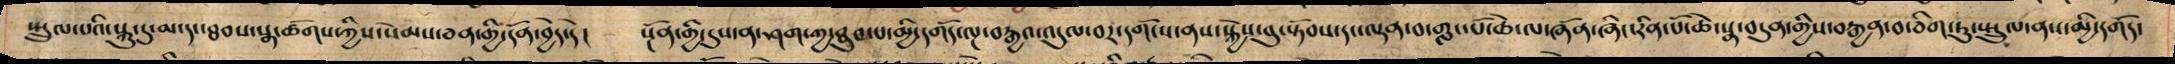སྤྲུལ་པའི་སྐུ་དུ་མ་དང་ཐབས་སྣ་ཚོགས་ཀྱིས་སེམས་ཅན་གྱི་དོན་བྱེད་དེ། སྔོན་གྱི་དུས་ན་ཤག་ཀྱ་ཐུབ་པ་མྱི་དགོད་ལྔ་བརྒྱའ་འདུལ་བར་དགོངས་ནས་སྐྱེས་བུ་སྟོབས་དང་ལྡན་བ་གླང་པོ་ཆེ་ལ་ཞཽན་ཞིང་རིན་པོ་ཆེ་སྣ་བདུན་གྱིས་བརྒྱན་བ་ཅིག་ཏུ་སྤྲུལ་ནས་མྱི་དགོད་
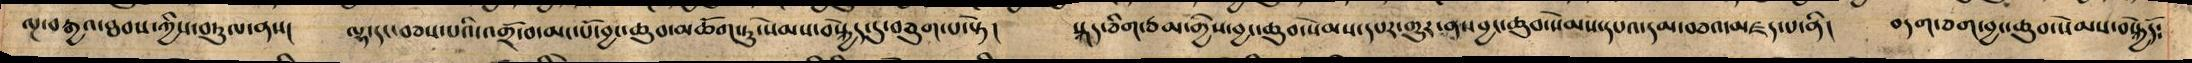ལྔ་བརྒྱའ་ཐབས་ཀྱིས་བཏུལ་ནས། ལྷ་དང་བཅས་པའི་འགྲོ་བ་མང་པོ་བྱང་ཆུབ་མཆོག་ཏུ་སེམས་བསྐྱེད་དུ་བཅུག་པ་སྟེ། སྐད་ཅིག་ཙམ་གྱིས་བྱང་ཆུབ་སེམས་དཔར་གྱུར་ནས་བྱང་ཆུབ་སེམས་དཔའ་དམ་བཅའ་མཛད་པ་ནི། བདག་ཅག་བྱང་ཆུབ་སེམས་བསྐྱེདོ༴
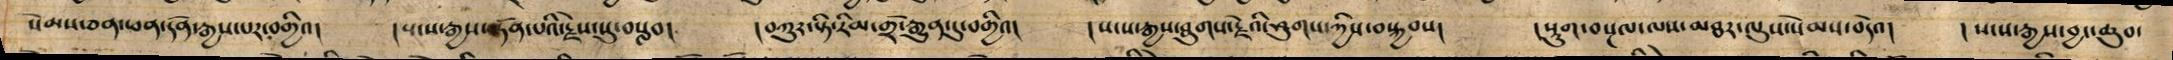སེམས་ཅན་ཕན་དོན་རྒྱས་པར་བགྱིའ། །སངས་རྒྱས་སྟོན་པའི་རྗེས་སུ་བསླབ། །བཀུར་སྟི་རིམ་གྲོ་རྒྱུན་དུ་བགྱིའ། །སངས་རྒྱས་ཐུགས་རྗེའི་ཤུགས་ཀྱིས་བསྐྱབས། །སྡུག་བསྔལ་ལས་མཐར་ལུས་སེམས་བདེའ། །སངས་རྒྱས་བྱང་ཆུབ་
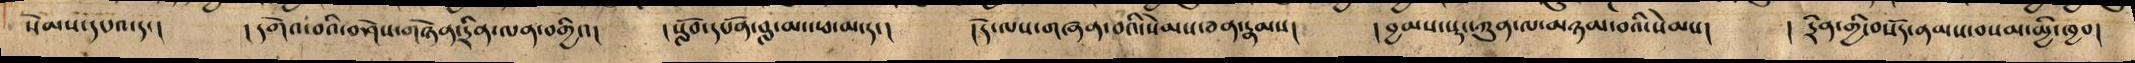སེམས་དཔའ་དང། །དགེའ་བའི་བཤེས་གཉེན་དྲིན་ལན་བགྱིའ། །སློབ་དཔོན་བླ་མ་ཕ་མ་དང། །དེ་ལས་གཞན་བའི་སེམས་ཅན་རྣམས། །བྱམས་སྡང་ཀུན་ལ་མཉམ་བའི་སེམས། ། དྲིན་གྱི་བསོད་ནམས་བསམ་མྱི་ཁྱབ།
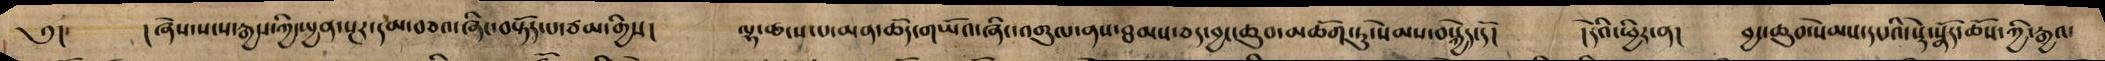༅། །ཞེས་སངས་རྒྱས་ཀྱི་སྤྱན་སྔར་དམ་བཅའ་ཞིང་བསྟོད་པ་ཙམ་གྱིས། ལྷ་ཚངས་པ་མན་ཆོད་གཡོའ་ཞིང་འགུལ་ནས་ཐམས་ཅད་བྱང་ཆུབ་མཆོག་ཏུ་སེམས་བསྐྱེད་དོ། །དེའི་ཕྱིར་ན། བྱང་ཆུབ་སེམས་དཔའི་སྡེ་སྣོད་ཆོས་ཀྱི་རྒྱའ་
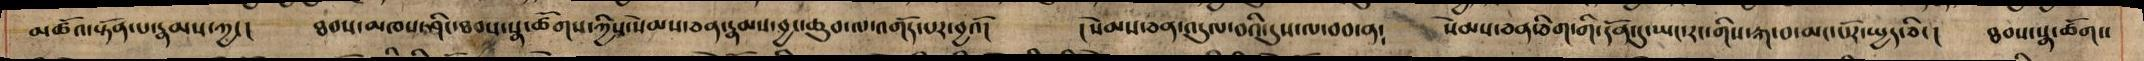མཚོའ་སྟོན་པ་རྣམས་ཀྱང། ཐབས་མཁས་ཤིང་ཐབས་སྣ་ཚོགས་ཀྱིས་སེམས་ཅན་རྣམས་བྱང་ཆུབ་ལ་འགོད་པར་བྱའོ། །སེམས་ཅན་འདུལ་བའི་དུས་ལ་བབ་ན། སེམས་ཅན་ཅིག་གི་དོན་དུ་ཡང་རང་གིས་རྐ་བ་མང་པོར་སྤྱད་ཅིང། ཐབས་སྣ་ཚོགས
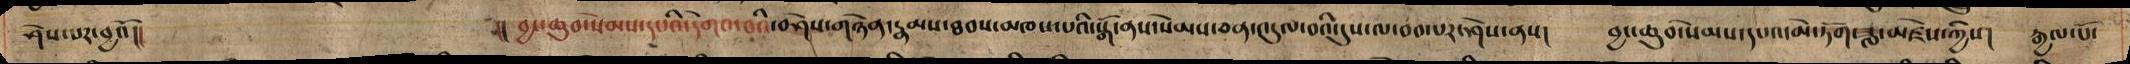ཤེས་པར་བྱའོ།། །། བྱང་ཆུབ་སེམས་དཔའི་དགེའ་བའི་བཤེས་གཉེན་རྣམས་ཐབས་མཁས་པའི་སྒོ་ནས་སེམས་ཅན་འདུལ་བའི་དུས་ལ་བབ་པར་ཤེས་ནས། བྱང་ཆུབ་སེམས་དཔའ་མེ་ཏོག་ཟླ་མཛེས་ཀྱིས། རྒྱལ་པོ་
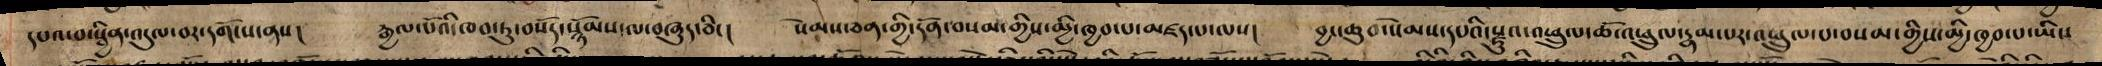དཔའ་བ་སྦྱིན་འདུལ་བར་དགོངས་ནས། རྒྱལ་པོའི་ཁབ་ཏུ་བསོད་སྙོམས་ལ་བཞུད་ཅིང། སེམས་ཅན་གྱི་དོན་བསམ་གྱིས་མྱི་ཁྱབ་པ་མཛད་པ་ལས། བྱང་ཆུབ་སེམས་དཔའི་སྫུའ་འཕྲུལ་ཆོ་འཕྲུལ་རྣམ་པར་འཕྲུལ་པ་བསམ་གྱིས་མྱི་ཁྱབ་པ་ཡིས
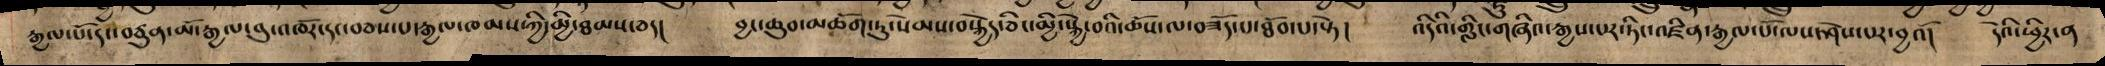རྒྱལ་པོ་དང་བཙུན་མོ་རྒྱལ་བུ་འཁོར་དང་བཅས་པ་རྒྱལ་ཁམས་ཀྱི་མྱི་ཐམས་ཅད། བྱང་ཆུབ་མཆོག་ཏུ་སེམས་བསྐྱེད་ཅིང་མྱེ་སྐྱེ་བའི་ཆོས་ལ་བཟོད་པ་ཐོབ་པ་སྟེ། འདིའི་གླིང་གཞིའ་རྒྱས་པར་ཏིང་འཛིན་རྒྱལ་པོ་ལས་ཤེས་པར་བྱའོ། དེའི་ཕྱིར་ན
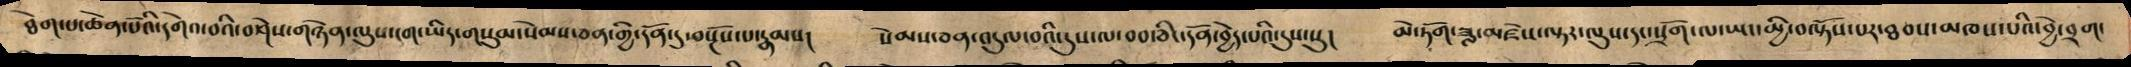ཐེག་པ་ཆེན་པོའི་དགེའ་བའི་བཤེས་གཉེན་ལུས་ངག་ཡིད་གསུམ་སེམས་ཅན་གྱི་དོན་དུ་བསྔོས་པ་རྣམས། སེམས་ཅན་འདུལ་བའི་དུས་ལ་བབ་ཅིང་དོན་བྱེད་པའི་དུས་སུ། མེ་ཏོག་ཟླ་མཛེས་ལྟར་ལུས་དང་སྲོག་ལ་ཡང་མྱི་བལྟོས་པར་ཐབས་མཁས་པའི་བྱེ་བྲག་
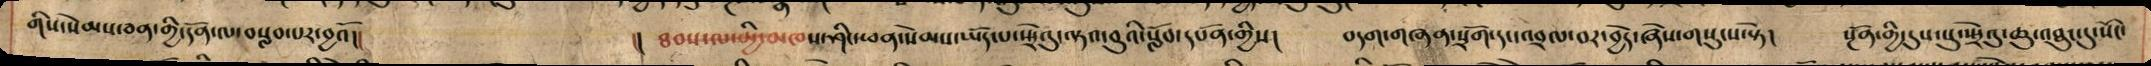གིས་སེམས་ཅན་གྱི་དོན་ལ་བསླབ་པར་བྱའོ།། །། ཐབས་ལ་མྱི་མཁས་ཤིང་ཕན་སེསམ་ཡོད་པ་སྤྲེའུ་ལྟའ་བུའི་སློབ་དཔོན་གྱིས། བདག་གཞན་སྲོག་དང་འབྲལ་བ་བྱེད་ཞེས་གསུངས་སྟེ། སྔོན་གྱི་དུས་སུ་སྤྲེའུ་ཆུ་འཐུང་དུ་སོང་
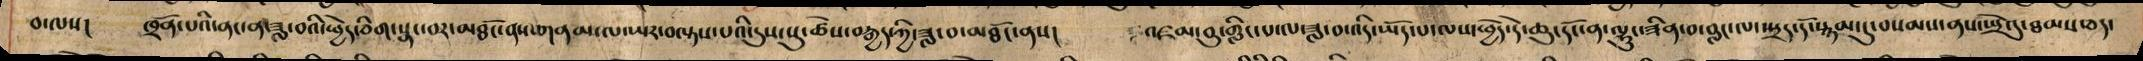བ་ལས། ཁྲོན་པའི་ནང་ན་ཟླ་བའི་ཕྱེད་ཅིག་སྣང་བར་མཐོང་ནས་གནམ་ལ་ཡར་བལྟས་པའི་དུས་སུ་ཚེས་བརྒྱད་ཀྱི་ཟླ་བ་མཐོང་ནས། འཛམ་བུ་གླིང་པ་ལ་ཟླ་བ་འདི་ཡོད་པ་ལས་ཕྱེད་དེ་ཆུ་དོང་ན་ལྷུང་ཟིན་བ་བླང་ལ་སྤྲད་དོ་སྙམ་དུ་བསམས་ནས་སྤྲེའུ་ཐམས་ཅད་
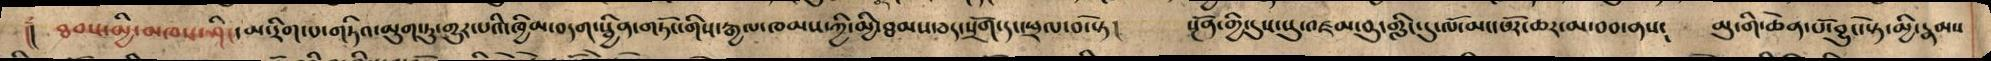།། ཐབས་མྱི་མཁས་ཤིང་མ་རིག་པ་གཏིའ་མུག་ཏུ་གྱུར་པའི་ཁྱིམ་བདག་སྦྱིན་གཏོང་གིས་རྒྱལ་ཁམས་ཀྱི་མྱི་ཐམས་ཅད་སྲོག་དང་ཕྲལ་བ་སྟེ། སྔོན་གྱི་དུས་སུ་འཛམ་བུ་གླིང་དུ་ལོ་མང་པོར་ཆར་མ་བབ་ནས༴ མུ་གི་ཆེན་པོ་བྱུང་སྟེ་མྱི་རྣམས
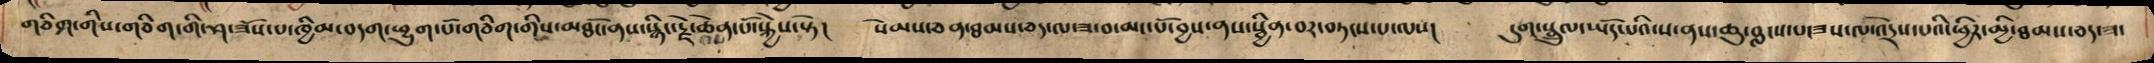གཅིག་གིས་གཅིག་གི་ཤ་ཟོས་པ་ཁྱིམ་བདག་ཕྱུག་པོ་གཅིག་གིས་མཐོང་ནས་སྙིང་རྗེ་ཆེན་པོ་སྐྱེས་སྟེ། སེམས་ཅན་ཐམས་ཅད་ལ་ཟ་བ་མང་པོ་བྱས་ནས་སྦྱིན་བར་བཏངས་པ་ལས། དུག་སྦྲུལ་ཡོད་པའི་ས་ནས་ཆུ་བླངས་པ་ཟས་ལ་འདྲེས་པའི་ཕྱིར་མྱི་ཐམས་ཅད་ཟ་
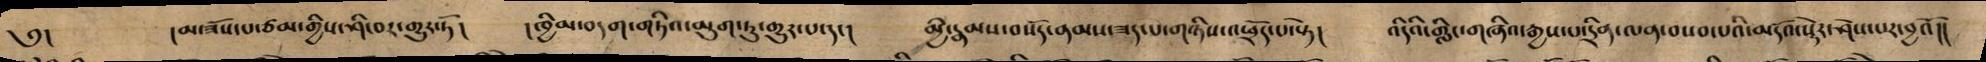༅། །མ་ཟོས་པ་ཙམ་གྱིས་ཤི་བར་གྱུར་ཏོ། །ཁྱིམ་བདག་གཏིའ་མུག་ཏུ་གྱུར་པ་དང། མྱི་རྣམས་བསོད་ནམས་ཟད་པ་གཉིས་འཕྲོད་པ་སྟེ། འདིའི་གླིང་གཞིའ་རྒྱས་པ་དྲིན་ལན་བསབ་པའི་མདོའ་སྡེར་ཤེས་པར་བྱའོ།།
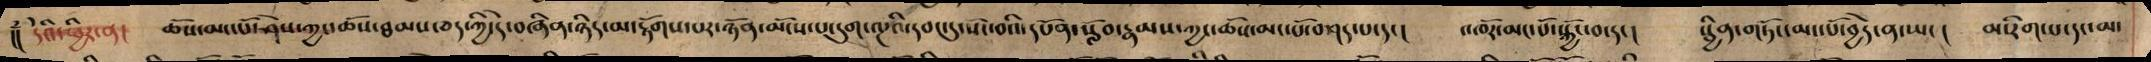།། དེའི་ཕྱིར་ན། ཆོས་མང་པོ་ཤེས་ཀྱང་ཆོས་ཐམས་ཅད་ཀྱི་དེ་བཞིན་ཉིད་མ་རྟོགས་པར་ཉོན་མོངས་པ་དུག་ལྔའི་དབང་དུ་སོང་བའི་དཔོན་སློབ་རྣམས་ཀྱང་ཆོས་མང་པོ་བཤད་པ་དང། འཁོར་མང་པོ་སྐྱོང་བ་དང། སྦྱིན་གཏོང་མང་པོ་བྱེད་ན་ཡང། མ་རིག་པ་དང་མ་
